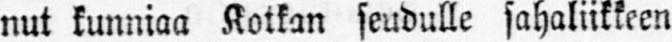nut kunniaa Kotkan seudulle sahaliikkeen
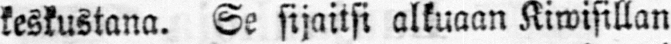keskustana. Se sijaitsi alkuaan Kiwisillan
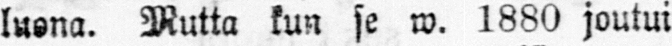luona. Mutta kun se w. 1880 joutui
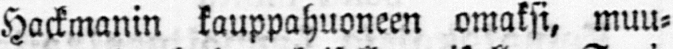Hackmanin kauppahuoneen omaksi, muu-
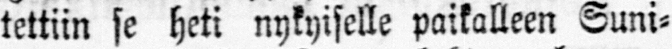tettiin se heti nykyiselle paikalleen Suni-
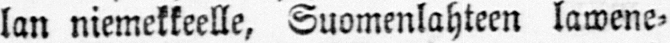lan niemekkeelle. Suomenlahteen lawene-
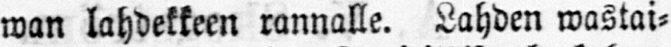wan lahdekkeen rannalle. Lahden wastai-
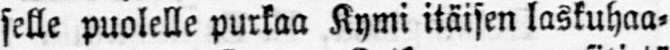selle puolelle purkaa Kymi itäisen laskuhaa-
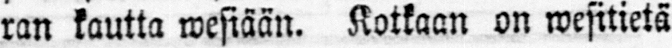ran kautta wesiään. Kotkaan on wesitietä
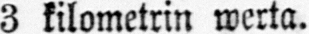3 kilometrin werta.
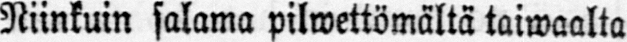Niinkuin salama pilwettömältä taiwaalta
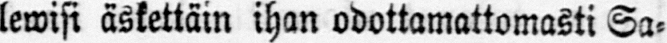lewisi äskettäin ihan odottamattomasti Sa-
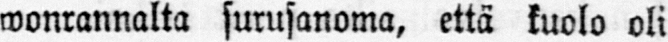wonrannalta surusanoma, että kuolo oli
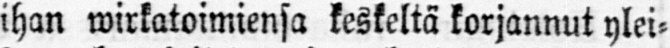ihan wirkatoimiensa keskeltä korjannut ylei-
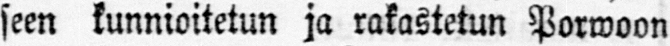seen kunnioitetun ja rakastetun Porwoon
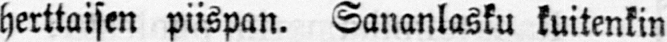herttaisen piispan. Sananlasku kuitenkin
